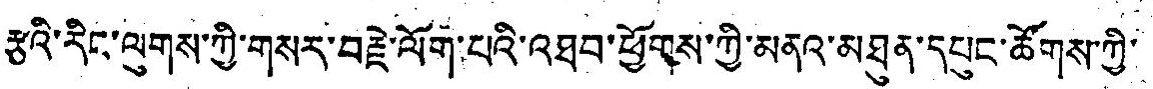རྩའི་རིང་ལུགས་ཀྱི་གསར་བརྗེ་ལོག་པའི་འཐབ་ཕྱོགས་ཀྱི་མནའ་མཐུན་དཔུང་ཚོགས་ཀྱི་
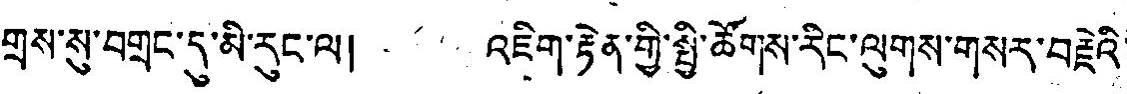གྲས་སུ་བགྲང་དུ་མི་རུང་ལ། འཇིག་རྟེན་གྱི་སྤྱི་ཚོགས་རིང་ལུགས་གསར་བརྗེའི་
